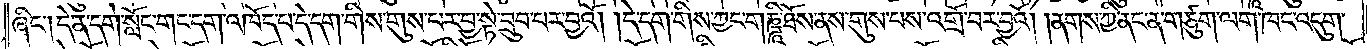ཞིང༌། དེ་ན་དགེ་སློང་གང་དག་འཁོད་པ་དེ་དག་གིས་གུས་པར་བྱ་སྟེ་བྲུབ་པར་བྱའོ། །དེ་དག་གིས་ཀྱང་གཎྜཱི་ཐོས་ནས་གུས་པས་འགྲོ་བར་བྱའོ། །ནགས་ཀྱི་ནང་ན་གཙུག་ལག་ཁང་འདུག་
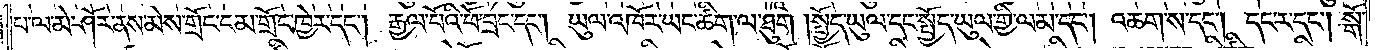པ་ལ་མེ་ཤོར་ནས་མེས་གྲོང་ངམ་གྲོང་ཁྱེར་དང༌། རྒྱལ་པོའི་ཕོ་བྲང་དང༌། ཡུལ་འཁོར་ཡང་ཚིག་ལ་ཐུག །སྤྱོད་ཡུལ་དང་སྤྱོད་ཡུལ་གྱི་ལམ་དང༌། འཆག་ས་དང༌། དང་ར་དང༌། སྒོ་
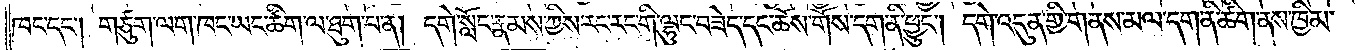ཁང་དང༌། གཙུག་ལག་ཁང་ཡང་ཚིག་ལ་ཐུག་པ་ན། དགེ་སློང་རྣམས་ཀྱིས་རང་རང་གི་ལྷུང་བཟེད་དང་ཆོས་གོས་དག་ནི་ཕྱུང༌། དགེ་འདུན་གྱི་གནས་མལ་དག་ནི་ཚིག་ནས་ཁྱིམ་
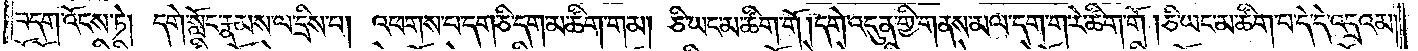བདག་འོངས་ཏེ། དགེ་སློང་རྣམས་ལ་དྲིས་པ། འཕགས་པ་དག་ཅི་དག་མ་ཚིག་གམ། ཅི་ཡང་མ་ཚིག་གོ །དགེ་འདུན་གྱི་གནས་མལ་དག་ག་རེ་ཚིག་གོ །ཅི་ཡང་མ་ཚིག་པ་དེ་དེ་འདྲའམ།
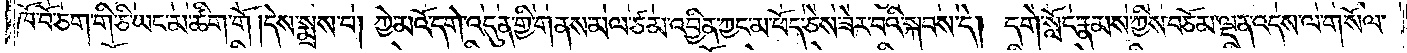ཁོ་བོ་ཅག་གི་ཅི་ཡང་མ་ཚིག་གོ །དེས་སྨྲས་པ། ཀྱེ་མའོ་དགེ་འདུན་གྱི་གནས་མལ་ཙམ་འབྱིན་ཀྱང་མ་ཕོད་ཅེས་ཟེར་བའི་སྐབས་དེ། དགེ་སློང་རྣམས་ཀྱིས་བཅོམ་ལྡན་འདས་ལ་གསོལ་
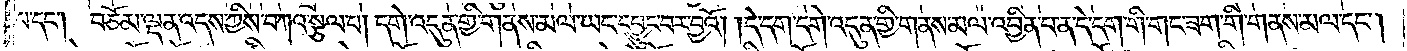པ་དང༌། བཅོམ་ལྡན་འདས་ཀྱིས་བཀའ་སྩལ་པ། དགེ་འདུན་གྱི་གནས་མལ་ཡང་དབྱུང་བར་བྱའོ། །དེ་དག་དགེ་འདུན་གྱི་གནས་མལ་འབྱིན་པ་ན་དེ་དག་གི་གང་ཟག་གི་གནས་མལ་དང༌།
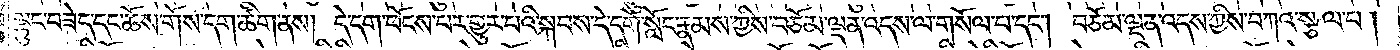ལྷུང་བཟེད་དང་ཆོས་གོས་དག་ཚིག་ནས། དེ་དག་ཕོངས་པར་གྱུར་པའི་སྐབས་དེ་དགེ་སློང་རྣམས་ཀྱིས་བཅོམ་ལྡན་འདས་ལ་གསོལ་པ་དང༌། བཅོམ་ལྡན་འདས་ཀྱིས་བཀའ་སྩལ་པ།
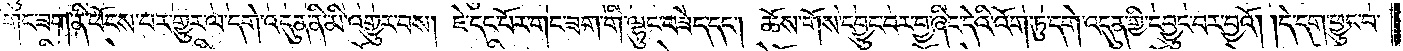གང་ཟག་ནི་ཕོངས་པར་གྱུར་ལ་དགེ་འདུན་ནི་མི་འགྱུར་བས། ཇེ་དང་པོར་གང་ཟག་གི་ལྷུང་བཟེད་དང༌། ཆོས་གོས་དབྱུང་བར་བྱ་ཞིང་དེའི་འོག་ཏུ་དགེ་འདུན་གྱི་དབྱུང་བར་བྱའོ། །དེ་དག་ཕྱུང་བ་
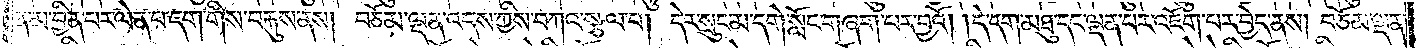ན་མ་བྱིན་པར་ལེན་པ་དག་གིས་བརྐུས་ནས། བཅོམ་ལྡན་འདས་ཀྱིས་བཀའ་སྩལ་པ། དེར་སྲུང་མ་དགེ་སློང་གཞག་པར་བྱའོ། །དེ་དག་མཐུ་དང་ལྡན་པར་འཇོག་པར་བྱེད་ནས། བཅོམ་ལྡན་
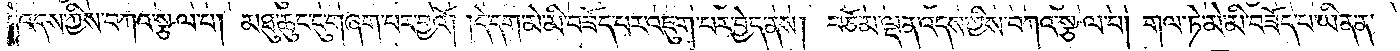འདས་ཀྱིས་བཀའ་སྩལ་པ། མཐུ་ཆུང་ངུ་གཞག་པར་བྱའོ། །དེ་དག་མེ་མི་བཟོད་པར་འཇུག་པར་བྱེད་ནས། བཅོམ་ལྡན་འདས་ཀྱིས་བཀའ་སྩལ་པ། གལ་ཏེ་མེ་མི་བཟོད་པ་ཡིན་ན་
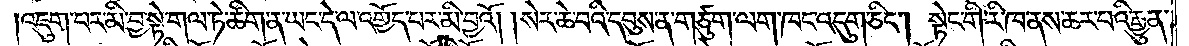འཇུག་པར་མི་བྱ་སྟེ་གལ་ཏེ་ཚིག་ན་ཡང་དེ་ལ་འགྱོད་པར་མི་བྱའོ། །སེར་ཆེ་བའི་དབུས་ན་གཙུག་ལག་ཁང་འདུག་ཅིང༌། སྟེང་གི་རི་ཁ་ནས་ཆར་པའི་རྒྱུན་
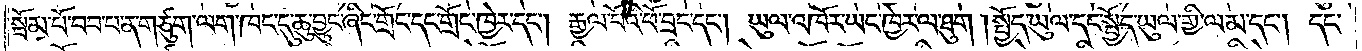སྦོམ་པོ་བབ་པ་ན་གཙུག་ལག་ཁང་དུ་ཆུ་བྱུང་ཞིང་གྲོང་དང་གྲོང་ཁྱེར་དང༌། རྒྱལ་པོའི་ཕོ་བྲང་དང༌། ཡུལ་འཁོར་ཡང་ཁྱེར་ལ་ཐུག །སྤྱོད་ཡུལ་དང་སྤྱོད་ཡུལ་གྱི་ལམ་དང༌། དང་
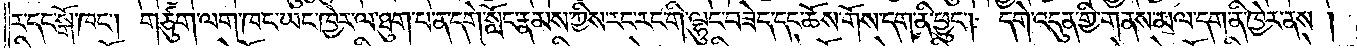ར་དང་སྒོ་ཁང༌། གཙུག་ལག་ཁང་ཡང་ཁྱེར་ལ་ཐུག་པ་ན་དགེ་སློང་རྣམས་ཀྱིས་རང་རང་གི་ལྷུང་བཟེད་དང་ཆོས་གོས་དག་ནི་ཕྱུང༌། དགེ་འདུན་གྱི་གནས་མལ་དག་ནི་ཁྱེར་ནས།
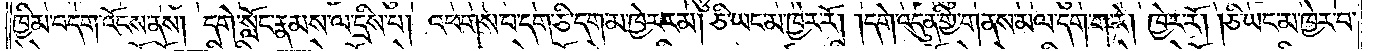ཁྱིམ་བདག་འོངས་ནས། དགེ་སློང་རྣམས་ལ་དྲིས་པ། འཕགས་པ་དག་ཅི་དག་མ་ཁྱེར་རམ། ཅི་ཡང་མ་ཁྱེར་རོ། །དགེ་འདུན་གྱི་གནས་མལ་དག་ག་རེ། ཁྱེར་རོ། །ཅི་ཡང་མ་ཁྱེར་བ་
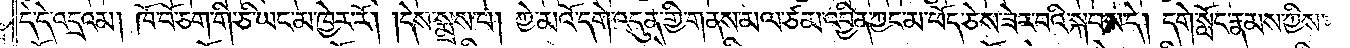དེ་དེ་འདྲའམ། ཁོ་བོ་ཅག་གི་ཅི་ཡང་མ་ཁྱེར་རོ། །དེས་སྨྲས་པ། ཀྱེ་མའོ་དགེ་འདུན་གྱི་གནས་མལ་ཙམ་འབྱིན་ཀྱང་མ་ཕོད་ཅེས་ཟེར་བའི་སྐབས་དེ། དགེ་སློང་རྣམས་ཀྱིས་
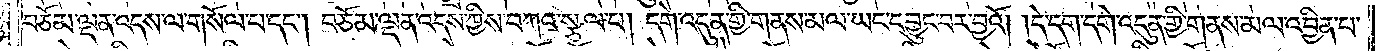བཅོམ་ལྡན་འདས་ལ་གསོལ་པ་དང༌། བཅོམ་ལྡན་འདས་ཀྱིས་བཀའ་སྩལ་པ། དགེ་འདུན་གྱི་གནས་མལ་ཡང་དབྱུང་བར་བྱའོ། །དེ་དག་དགེ་འདུན་གྱི་གནས་མལ་འབྱིན་པ་
